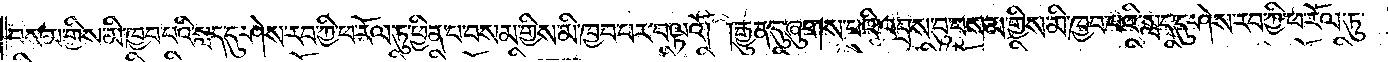བསམ་གྱིས་མི་ཁྱབ་པའི་སླད་དུ་ཤེས་རབ་ཀྱི་ཕ་རོལ་ཏུ་ཕྱིན་པ་བསམ་གྱིས་མི་ཁྱབ་པར་བལྟའོ། །རྒྱུན་དུ་ཞུགས་པའི་འབྲས་བུ་བསམ་གྱིས་མི་ཁྱབ་པའི་སླད་དུ་ཤེས་རབ་ཀྱི་ཕ་རོལ་ཏུ་
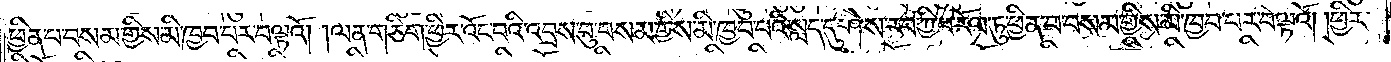ཕྱིན་པ་བསམ་གྱིས་མི་ཁྱབ་པར་བལྟའོ། །ལན་གཅིག་ཕྱིར་འོང་བའི་འབྲས་བུ་བསམ་གྱིས་མི་ཁྱབ་པའི་སླད་དུ་ཤེས་རབ་ཀྱི་ཕ་རོལ་ཏུ་ཕྱིན་པ་བསམ་གྱིས་མི་ཁྱབ་པར་བལྟའོ། །ཕྱིར་
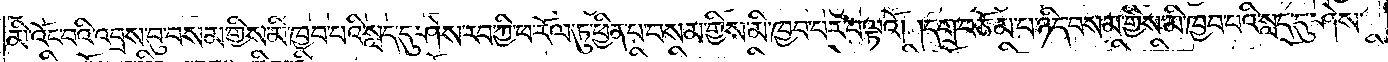མི་འོང་བའི་འབྲས་བུ་བསམ་གྱིས་མི་ཁྱབ་པའི་སླད་དུ་ཤེས་རབ་ཀྱི་ཕ་རོལ་ཏུ་ཕྱིན་པ་བསམ་གྱིས་མི་ཁྱབ་པར་བལྟའོ། །དགྲ་བཅོམ་པ་ཉིད་བསམ་གྱིས་མི་ཁྱབ་པའི་སླད་དུ་ཤེས་
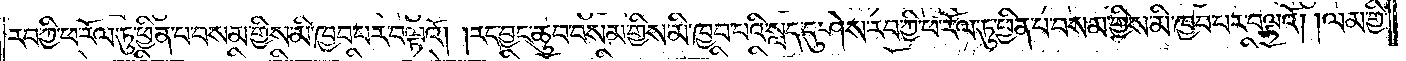རབ་ཀྱི་ཕ་རོལ་ཏུ་ཕྱིན་པ་བསམ་གྱིས་མི་ཁྱབ་པར་བལྟའོ། །རང་བྱང་ཆུབ་བསམ་གྱིས་མི་ཁྱབ་པའི་སླད་དུ་ཤེས་རབ་ཀྱི་ཕ་རོལ་ཏུ་ཕྱིན་པ་བསམ་གྱིས་མི་ཁྱབ་པར་བལྟའོ། །ལམ་གྱི་
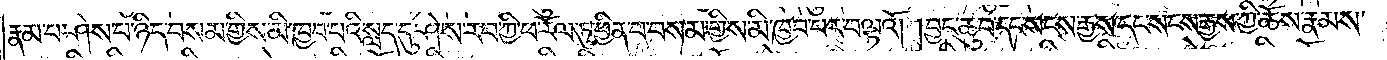རྣམ་པ་ཤེས་པ་ཉིད་བསམ་གྱིས་མི་ཁྱབ་པའི་སླད་དུ་ཤེས་རབ་ཀྱི་ཕ་རོལ་ཏུ་ཕྱིན་པ་བསམ་གྱིས་མི་ཁྱབ་པར་བལྟའོ། །བྱང་ཆུབ་དང་སངས་རྒྱས་དང་སངས་རྒྱས་ཀྱི་ཆོས་རྣམས་
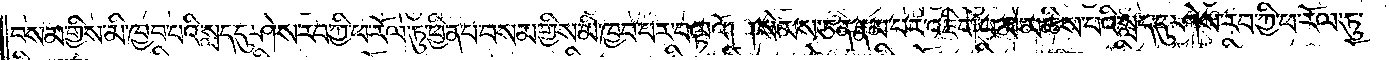བསམ་གྱིས་མི་ཁྱབ་པའི་སླད་དུ་ཤེས་རབ་ཀྱི་ཕ་རོལ་ཏུ་ཕྱིན་པ་བསམ་གྱིས་མི་ཁྱབ་པར་བལྟའོ། །སེམས་ཅན་རྣམ་པར་འཇིག་པ་མ་མཆིས་པའི་སླད་དུ་ཤེས་རབ་ཀྱི་ཕ་རོལ་ཏུ་
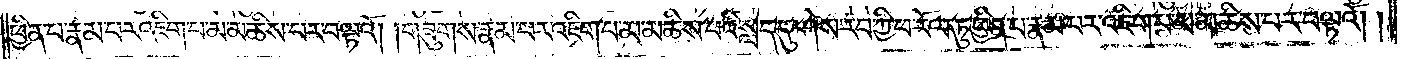ཕྱིན་པ་རྣམ་པར་འཇིག་པ་མ་མཆིས་པར་བལྟའོ། །གཟུགས་རྣམ་པར་འཇིག་པ་མ་མཆིས་པའི་སླད་དུ་ཤེས་རབ་ཀྱི་ཕ་རོལ་ཏུ་ཕྱིན་པ་རྣམ་པར་འཇིག་པ་མ་མཆིས་པར་བལྟའོ།
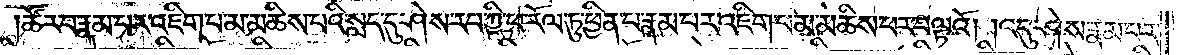ཚོར་བ་རྣམ་པར་འཇིག་པ་མ་མཆིས་པའི་སླད་དུ་ཤེས་རབ་ཀྱི་ཕ་རོལ་ཏུ་ཕྱིན་པ་རྣམ་པར་འཇིག་པ་མ་མཆིས་པར་བལྟའོ། །འདུ་ཤེས་རྣམ་པར་
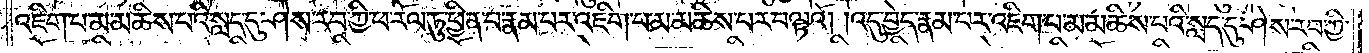འཇིག་པ་མ་མཆིས་པའི་སླད་དུ་ཤེས་རབ་ཀྱི་ཕ་རོལ་ཏུ་ཕྱིན་པ་རྣམ་པར་འཇིག་པ་མ་མཆིས་པར་བལྟའོ། །འདུ་བྱེད་རྣམ་པར་འཇིག་པ་མ་མཆིས་པའི་སླད་དུ་ཤེས་རབ་ཀྱི་
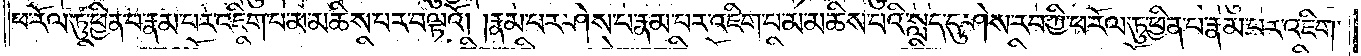ཕ་རོལ་ཏུ་ཕྱིན་པ་རྣམ་པར་འཇིག་པ་མ་མཆིས་པར་བལྟའོ། །རྣམ་པར་ཤེས་པ་རྣམ་པར་འཇིག་པ་མ་མཆིས་པའི་སླད་དུ་ཤེས་རབ་ཀྱི་ཕ་རོལ་ཏུ་ཕྱིན་པ་རྣམ་པར་འཇིག་
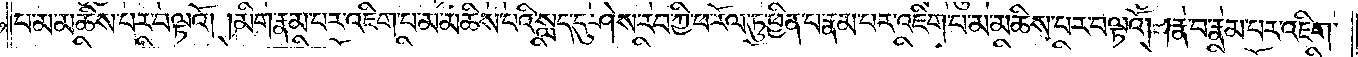པ་མ་མཆིས་པར་བལྟའོ། །མིག་རྣམ་པར་འཇིག་པ་མ་མཆིས་པའི་སླད་དུ་ཤེས་རབ་ཀྱི་ཕ་རོལ་ཏུ་ཕྱིན་པ་རྣམ་པར་འཇིག་པ་མ་མཆིས་པར་བལྟའོ། །རྣ་བ་རྣམ་པར་འཇིག་
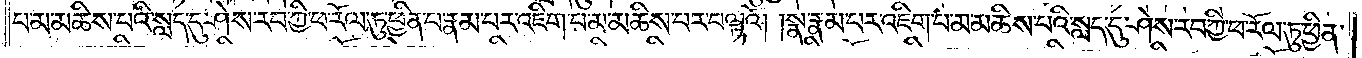པ་མ་མཆིས་པའི་སླད་དུ་ཤེས་རབ་ཀྱི་ཕ་རོལ་ཏུ་ཕྱིན་པ་རྣམ་པར་འཇིག་པ་མ་མཆིས་པར་བལྟའོ། །སྣ་རྣམ་པར་འཇིག་པ་མ་མཆིས་པའི་སླད་དུ་ཤེས་རབ་ཀྱི་ཕ་རོལ་ཏུ་ཕྱིན་
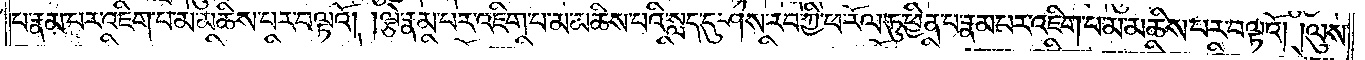པ་རྣམ་པར་འཇིག་པ་མ་མཆིས་པར་བལྟའོ། །ལྕེ་རྣམ་པར་འཇིག་པ་མ་མཆིས་པའི་སླད་དུ་ཤེས་རབ་ཀྱི་ཕ་རོལ་ཏུ་ཕྱིན་པ་རྣམ་པར་འཇིག་པ་མ་མཆིས་པར་བལྟའོ། །ལུས་
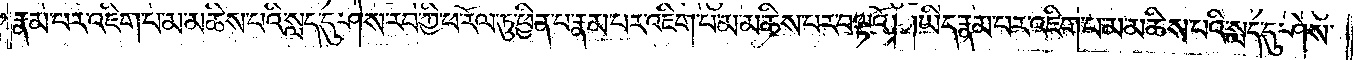རྣམ་པར་འཇིག་པ་མ་མཆིས་པའི་སླད་དུ་ཤེས་རབ་ཀྱི་ཕ་རོལ་ཏུ་ཕྱིན་པ་རྣམ་པར་འཇིག་པ་མ་མཆིས་པར་བལྟའོ། །ཡིད་རྣམ་པར་འཇིག་པ་མ་མཆིས་པའི་སླད་དུ་ཤེས་
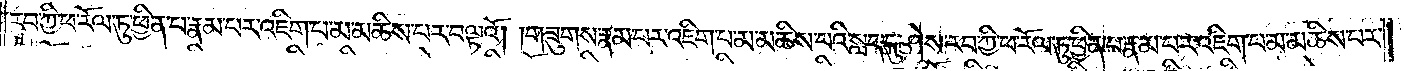རབ་ཀྱི་ཕ་རོལ་ཏུ་ཕྱིན་པ་རྣམ་པར་འཇིག་པ་མ་མཆིས་པར་བལྟའོ། །གཟུགས་རྣམ་པར་འཇིག་པ་མ་མཆིས་པའི་སླད་དུ་ཤེས་རབ་ཀྱི་ཕ་རོལ་ཏུ་ཕྱིན་པ་རྣམ་པར་འཇིག་པ་མ་མཆིས་པར་
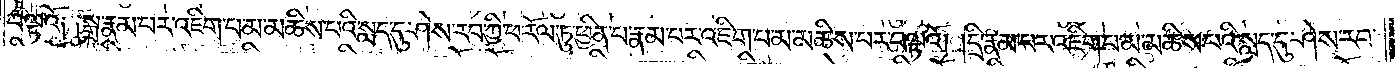བལྟའོ༑ ༑སྒྲ་རྣམ་པར་འཇིག་པ་མ་མཆིས་པའི་སླད་དུ་ཤེས་རབ་ཀྱི་ཕ་རོལ་ཏུ་ཕྱིན་པ་རྣམ་པར་འཇིག་པ་མ་མཆིས་པར་བལྟའོ། །དྲི་རྣམ་པར་འཇིག་པ་མ་མཆིས་པའི་སླད་དུ་ཤེས་རབ་
